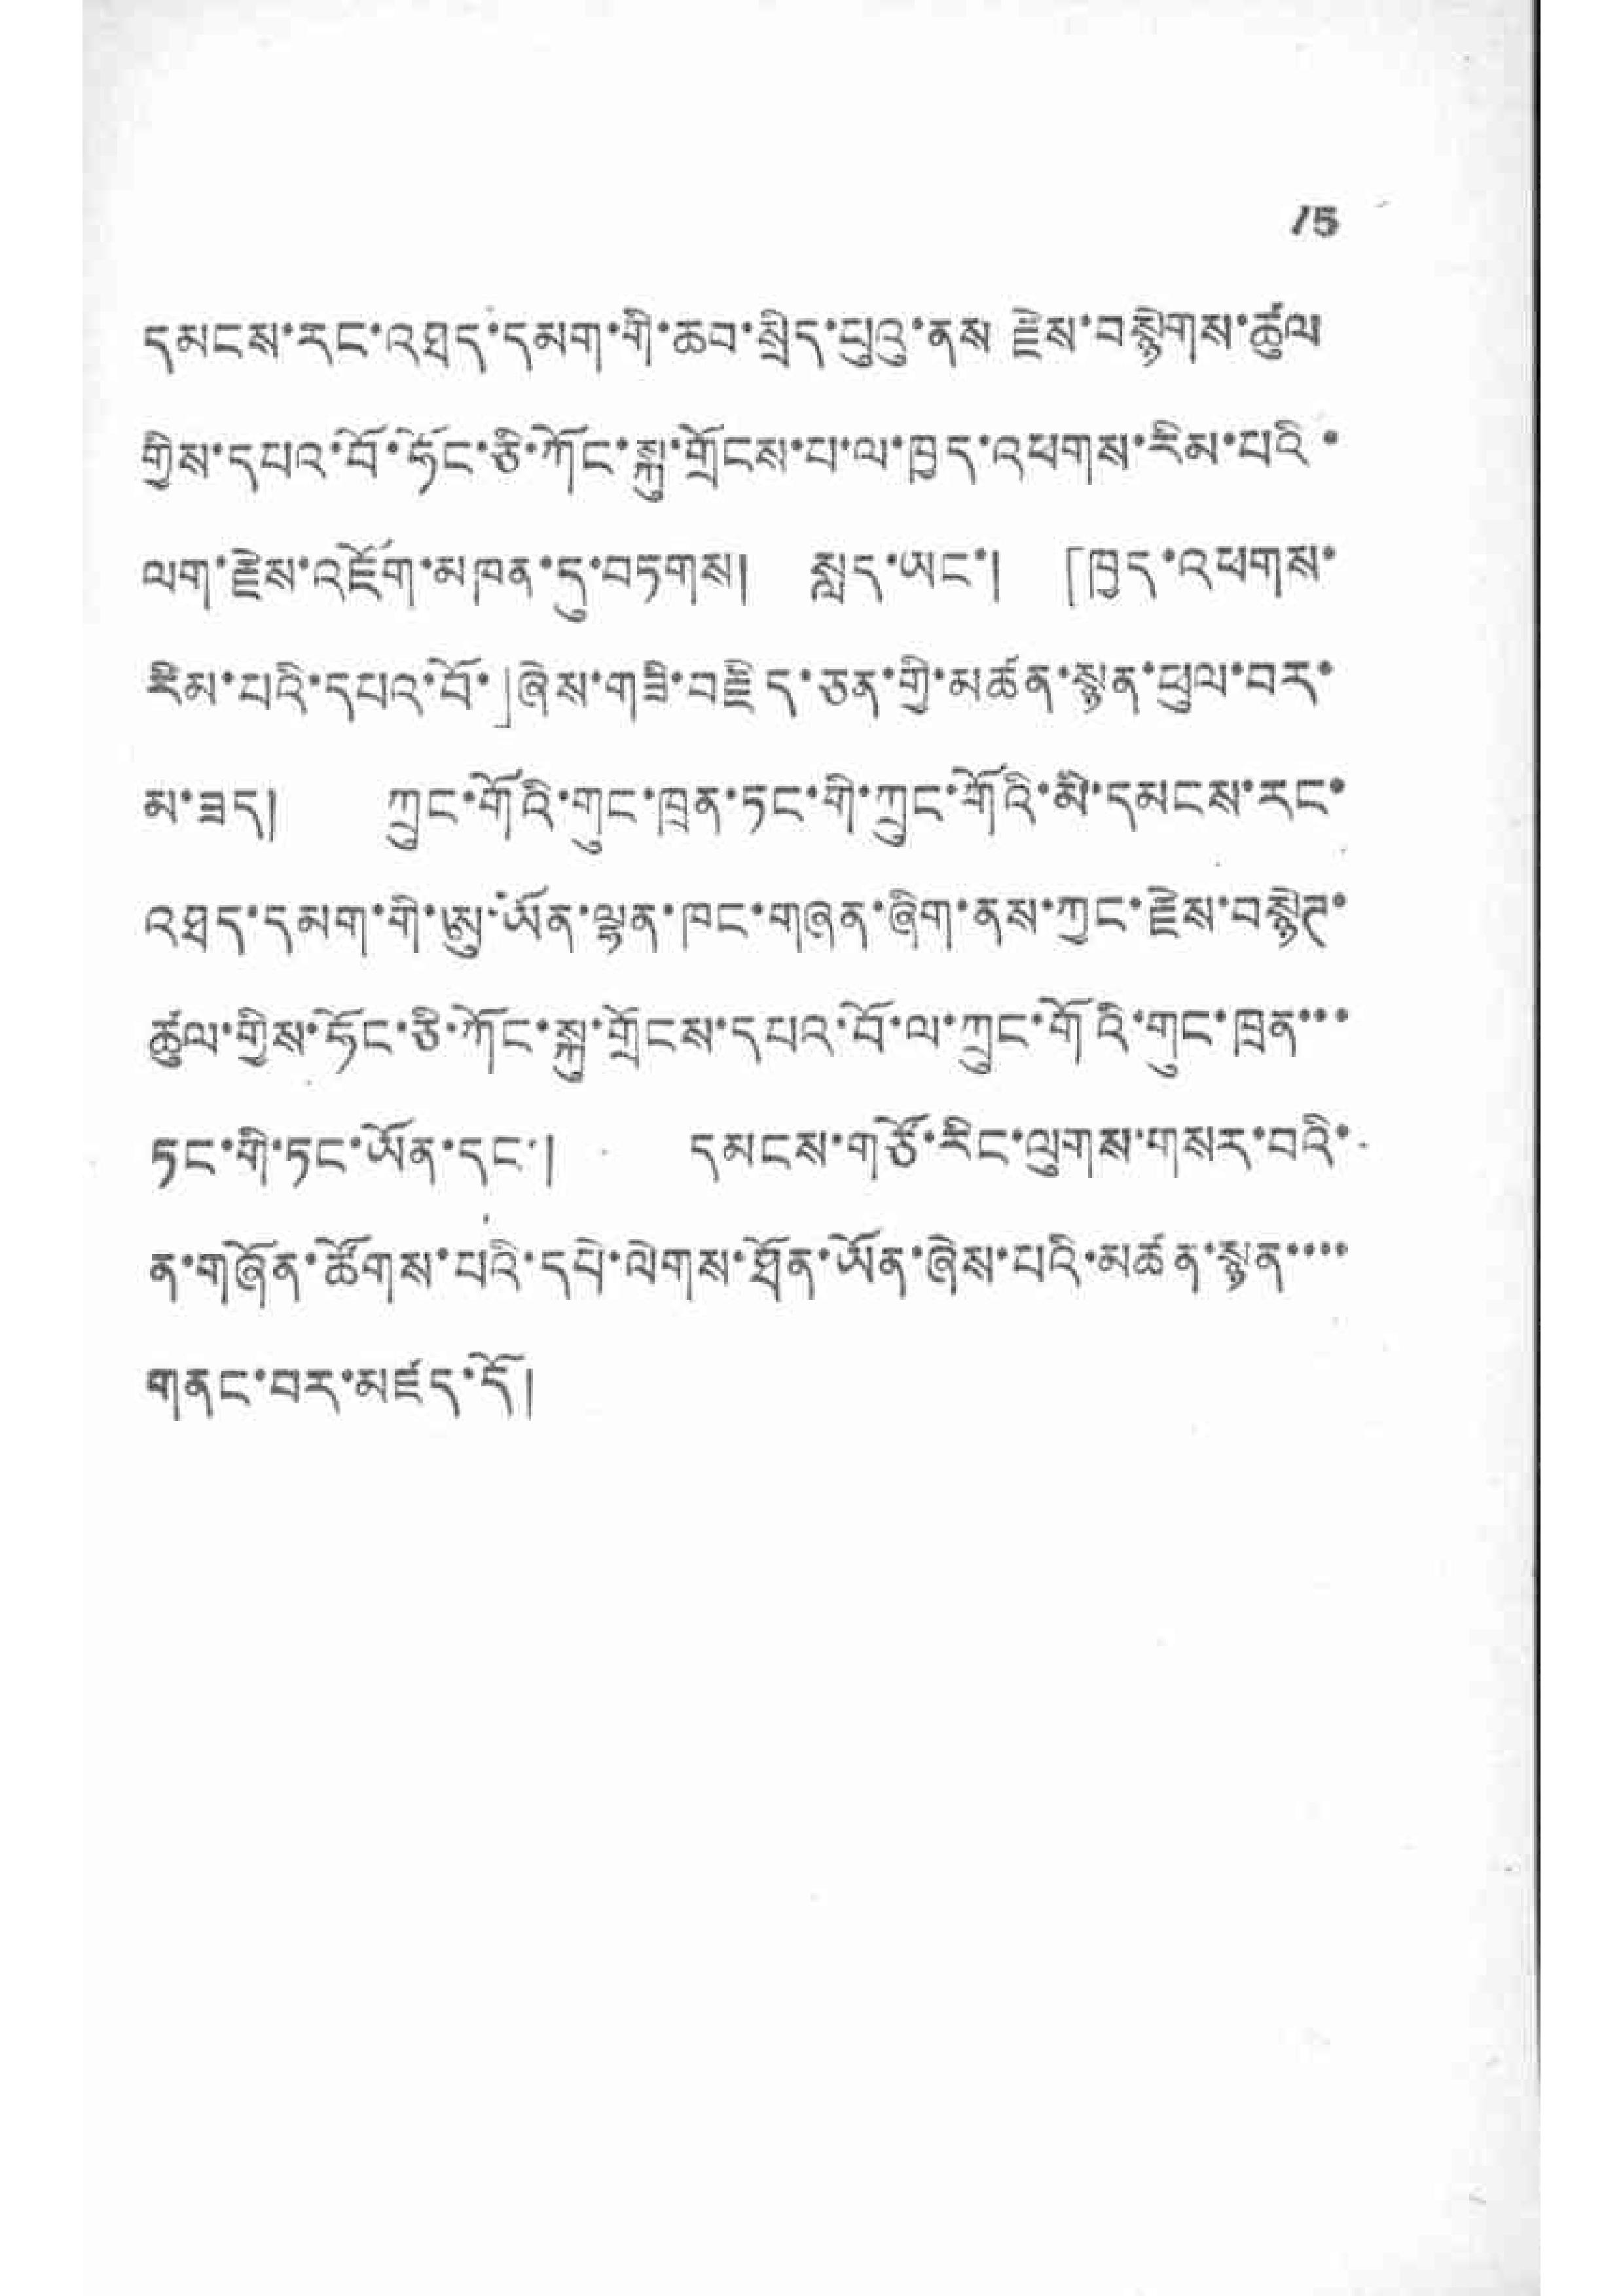15
དམངས་རང་འཐད་དམག་གྱི་ཆབ་སྲིད་པུའུ་ནས རྗེས་བསྙེགས་ཚུལ
གྱིས་དཔའ་བོ་ཧོང་ཅི་ཀོང་སྐུ་གྲོངས་པ་ལ་ཁྱད་འཕགས་རིམ་པའི་
ལག་རྗེས་འཇོག་མཁན་དུ་བཏགས། སླར་ཡང་། 「ཁྱད་འཕགས་
རིམ་པའི་དཔའ་བོ་」ཞེས་གཟི་བརྗིད་ཅན་གྱི་མཚན་སྙན་ཕུལ་བར་
མ་ཟད། ཀྲུང་གོའི་གུང་ཁྲན་ཏང་གི་ཀྲུང་གོའི་མི་དམངས་རང་
འཐད་དམག་གི་ཨུ་ཡོན་ལྷན་ཁང་གཞན་ཞིག་ནས་ཀྱང་རྗེས་བསྙེཊ་
ཚུལ་གྱིས་ཧོང་ཅི་ཀོང་སྐུ་གྲོངས་དཔའ་བོ་ལ་ཀྲུང་གོའི་གུང་ཁྲན་་་
ཏང་གི་ཏང་ཡོན་དང་། དམངས་གཙོ་རིང་ལུགས་གསར་བའི་
ན་གཞོན་ཚོགས་པའི་དཔེ་ལེགས་ཐོན་ཡོན་ཞེས་པའི་མཚན་སྙན་་་་
གནང་བར་མཛད་དོ།
